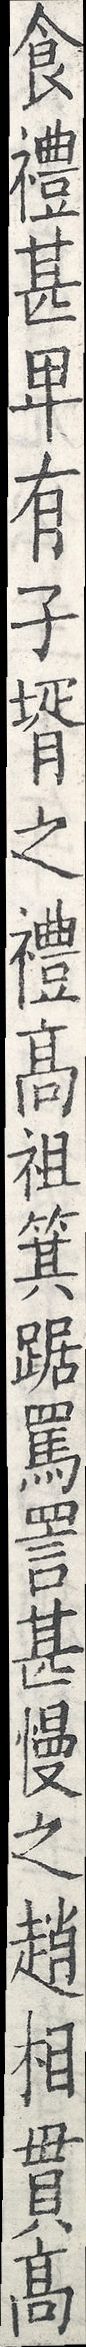食禮甚卑有子婿之禮高祖箕踞罵詈甚慢之趙相貫高
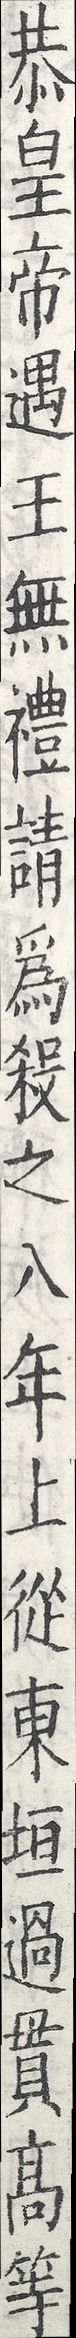恭皇帝遇王無禮請為殺之八年上從東垣過貫高等
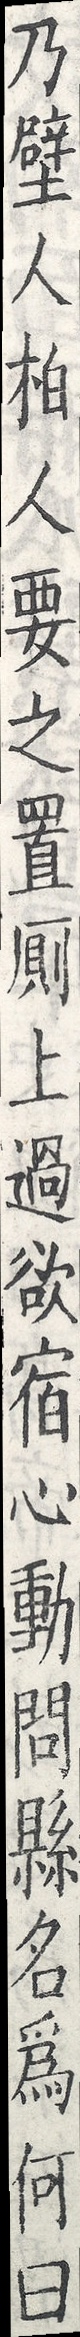乃壁人柏人要之置廁上過欲宿心動問縣名為何曰
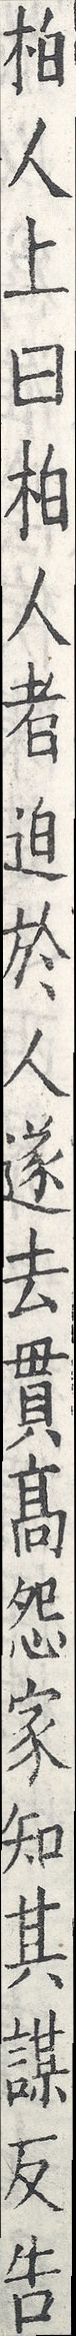柏人上曰柏人者迫於人遂去貫高怨家知其謀反告
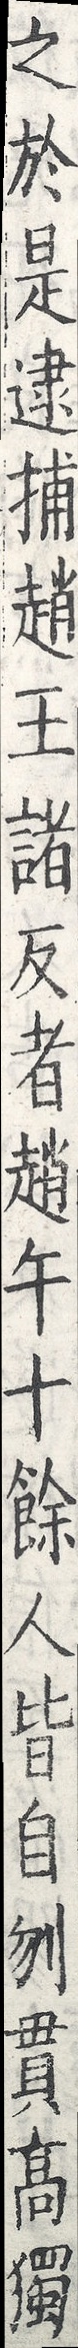之於是逮捕趙王諸反者趙午十餘人皆自刎貫高獨
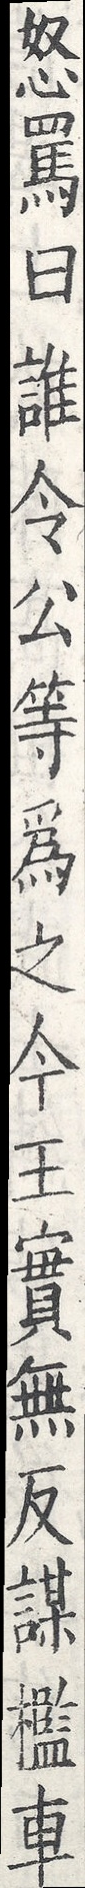怒罵曰誰令公等為之今王實無反謀檻車
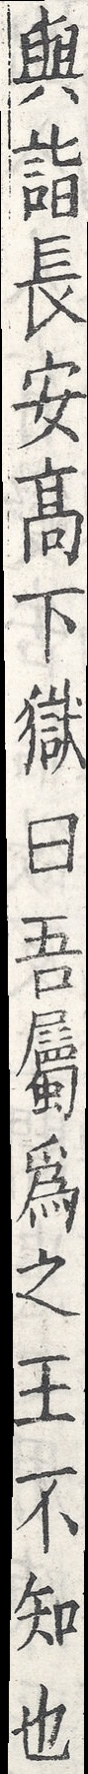與詣長安高下獄曰吾屬為之王不知也
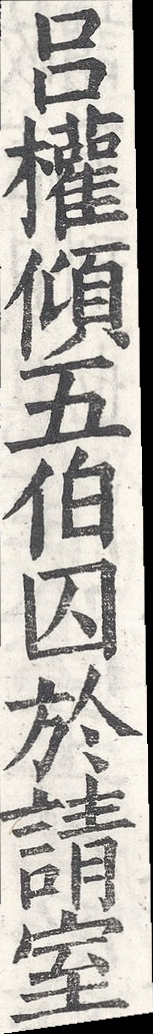呂權傾五伯囚於請室
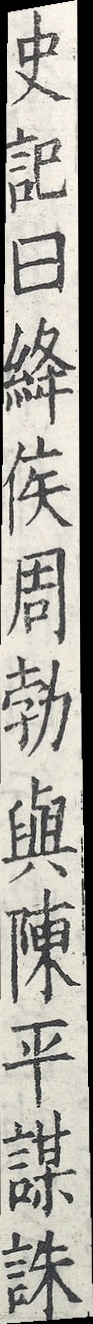史記曰絳侯周勃與陳平謀誅
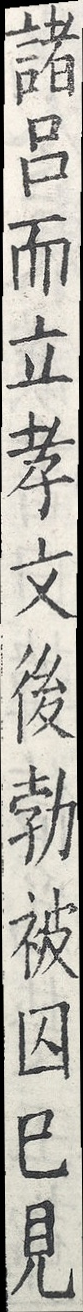諸呂而立孝文後勃被囚已見
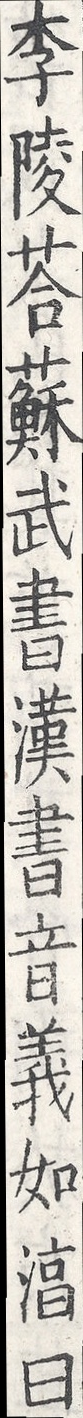李陵荅蘇武書漢書音義如湻曰
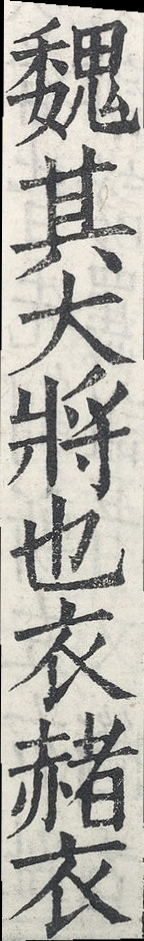魏其大將也衣赭衣
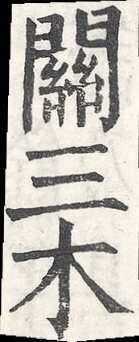關三木
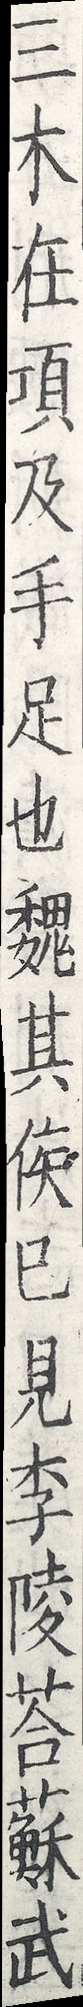三木在項及手足也魏其侯已見李陵荅蘇武
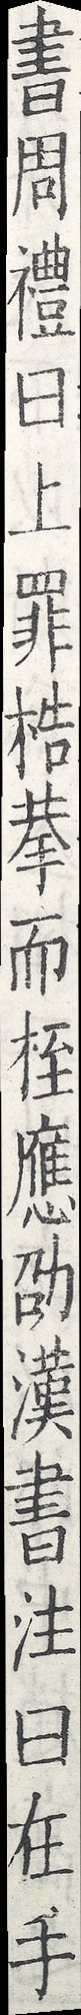書周禮曰上罪梏拲而桎應劭漢書注曰在手
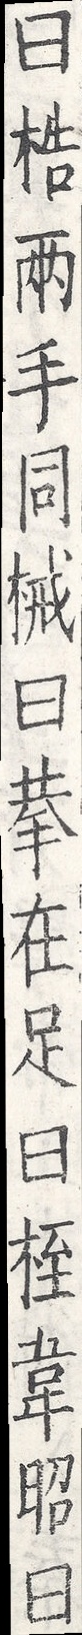曰梏兩手同械曰拲在足曰桎韋昭曰
